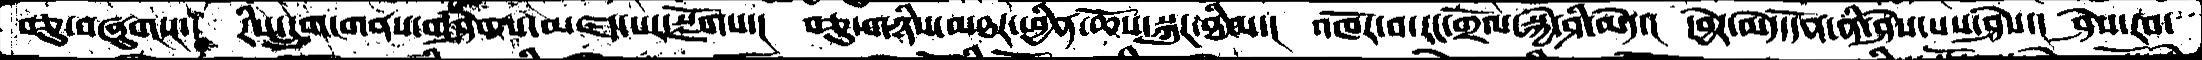བཅུ་བཞུགས་།  རིས་དྲུག་གནས་གཤེགས་མཛད་པར་སྫོགས་།  བཅུ་གཉིས་མཐར་ཕྱིན་ཆོས་སྐུར་ཐིམ་།  འཁོར་བ་རང་གྲོལ་སྐྱེ་ཤི་མེད་།  དབྱེར་མེད་དོན་ནི་ཤེས་པས་ཤེས་།  ཤེས་རབ་
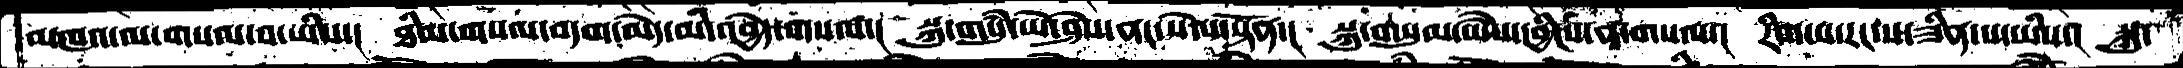མཁའ་ལ་གསལ་བ་ཡིས་།  ཐིམ་གསལ་བདག་མེད་མི་འབྱེད་གསལ་།  སྐུ་གསུཾ་ཡེ་ཤེས་ནང་སེལ་སྟོན་།  སྐུ་གསུམ་ཡཻས་དབྱིངས་ན་གསལ་།  རིག་པ་རང་ས་ཟིན་པ་ཡིས་།  སྐུ་
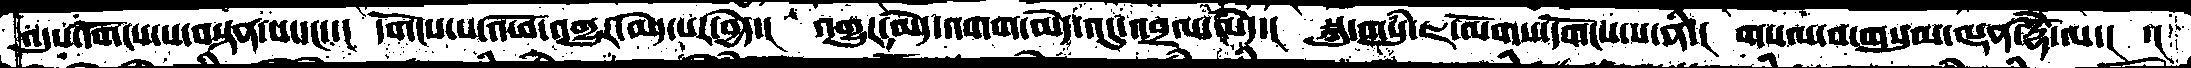འདུས་དགོངས་པ་བསྟན་པ་དང་་།  དགོངས་པ་འཕོ་འགྱུར་མེད་པར་བྱེད་།  འགྱུར་མེད་འགག་མེད་འདུ་འབྲལ་མེད་།  སྐུ་གསུཾ་ཇ་ལོགས་་དགོངས་པ་ནི་།  གསལ་བ་གསུམ་ལྡན་རྡོེ་ལ་།  ་།
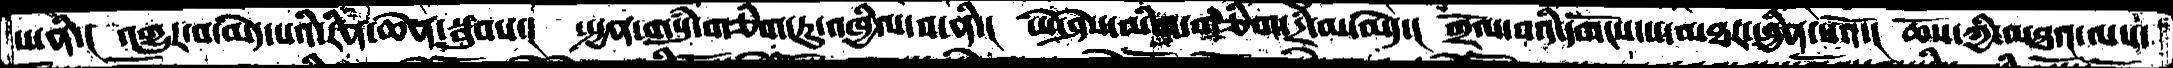ཡིན་།  འགྱུར་བ་མེད་པའི་རིན་ཆེན་སྦུབས་།  སྤྱན་གསུཾ་གཅིག་ཏུ་འཁྱིལ་བ་ནི་།  ཡེ་ཤེས་མིག་གཅིག་དྲི་མ་མེད་།  གྲོལ་བའི་དགོངས་པ་མཐར་ཕྱིན་པའོ་།  ཆོས་ཀྱི་མཐའ་ལས་
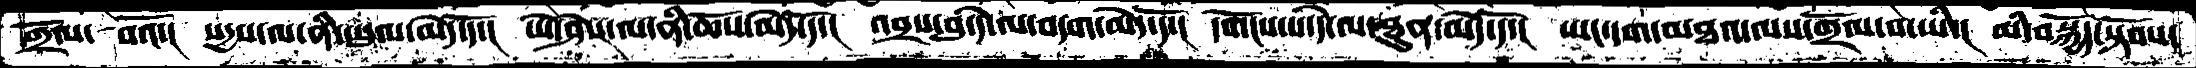གྲོལ་ བའོ་།  སདྱས་ལ་ནི་ཡུལ་མེད་དོ་།  ཡེ་ཤེས་ལ་ནི་ཆོས་མེད་དོ་།  འབྲས་བུ་དེ་ལ་བདག་མེད་དོ་།  དགོངས་པ་དེ་ལ་ཐུན་མེད་དོ་།  ཡང་དག་མཐའ་ལས་གྲོལ་བ་ཡི་།  མི་བསྐྱོད་སྟོབས་
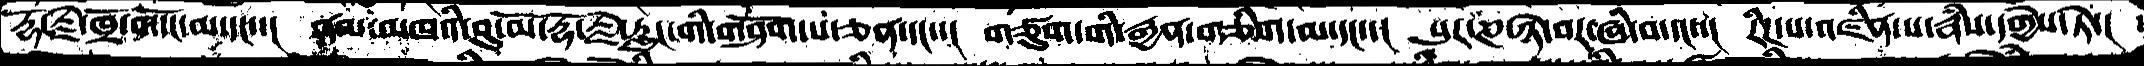རྡོ་རྗེ་ཁྲོ་གདོང་མ་དང་་།   ནམ་མཁའི་བུ་མོ་རྡོ་རྗེ་རླུང་གི་གཤོག་པ་ཅན་དང་་།  གཙུག་གི་རྒྱན་གཅིག་མ་དང་་།  པུར་ཎ་ཉེ་བར་ཞི་བ་དང་་།  རིཌ་པ་འཛིན་པ་རྣཾས་དགྱེས་ཏེ་།  ་
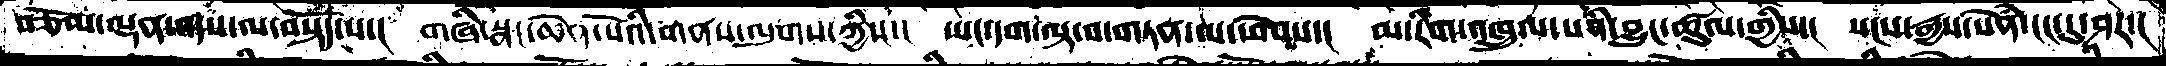བཅོམ་ལྡན་འདས་ལ་བསྟོད་པ་།  གཞི་སྣང་ཆེན་པོའི་གནས་ལུགས་ཀྱིས་།  ཡང་དག་ལྟ་བ་གཏན་ལ་ཕེབས་།  མ་རིག་འཁྲུལ་པའི་བྱུང་ཚུལ་གྱིས།  སངས་རྒྱས་སེཾན་ངང་དུ་ཤར་།
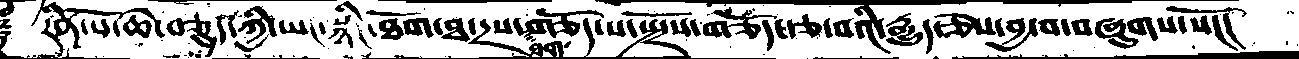༈  རིན་པོ་ཆེ་བཅུད་ཀྱི་ཡང་སྙིང་ཐོག་ཐ་དྲས་ཐག་གཅོད་པ་སྤྲོས་གཅོད་རྩ་བའི་རྒྱུད་ཅེས་བྱ་བ་བཞུགས་སོ།།།
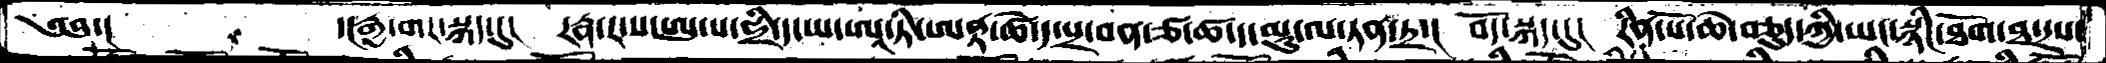༄༅་།        ་།རྒྱ་གར་སྐད་དུ།  རཏྣ་ར་ས་ཨུ་པ་ཧྲི་ད་ཡ་ཨཱ་ཏི་ཨནྟ་ཚེ་ད་པྲ་བན་ཙ་ཚ་ད་མཱུ་ལ་ཏན་ཏྲ་།  བོད་སྐད་དུ། རིན་པོ་ཆེ་བཅུད་ཀྱི་ཡང་སྙིང་ཐོག་ཐ་དྲས་
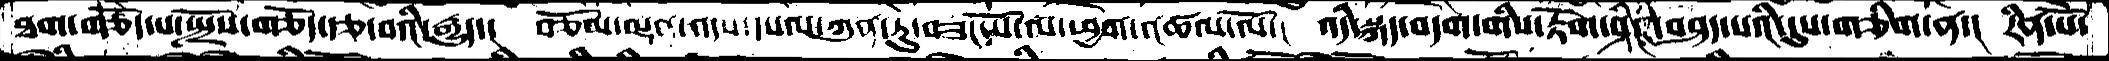ཐག་གཅོད་པ་སྤྲོས་གཅོད་རྩ་བའི་རྒྱུད་།  བཅོམ་ལྡན་འདས་དཔལ་ཀུན་ཏུ་བཟང་པོ་ལ་ཕྱག་འཚལ་ལོ་།  འདི་སྐད་བདག་གིས་རྟོག་ཤིང་བཤད་པའི་དུས་གཅིག་ན་། རིན་པོ་
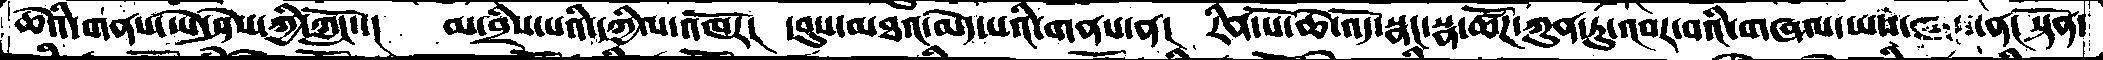ཆེའི་གནས་ཡེ་ཤེས་ཀྱི་ཀློང་་།  མ་བྲིས་པའི་དཀྱིལ་འཁོར།  དབུས་མཐའ་མེད་པའི་གནས་ན།  རིན་པོ་ཆེ་འོད་སྣང་སྣ་ཚོཌ་ཀུན་ཏུ་འབར་བའི་གཞལ་ཡས་ཁང་ན། སྟོན་
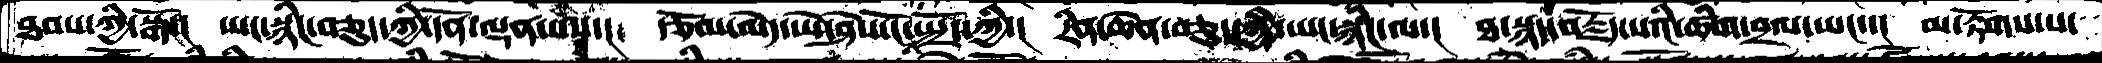ཐབས་ཀྱི་སྒོ།།།  ཡང་སྙིང་བཅུད་ཀྱི་དོན་ལྡན་པས་།   རྩོལ་མེད་ཡེ་ཤེས་ངོ་སྤྲོད་ཀྱི་།  རིན་ཆེན་བཅུད་ཀྱི་ཡང་སྙིང་ལ་།  ཐ་སྙད་བརྗོད་པའི་ཚིག་བྲལ་ཡང་་།  མ་རྟོགས་པ་
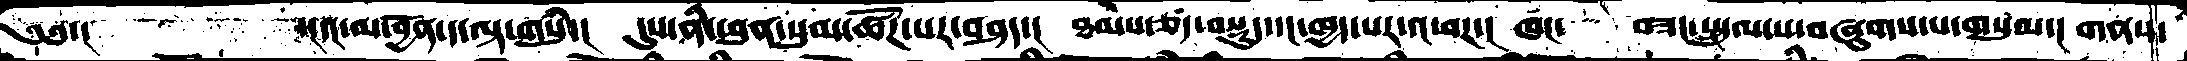༄༅་།      ་།དང་མ་བྱོན་ད་ལྟ་གསུཾ་།  དུས་ནི་ཕུན་སུམ་ཚོཌ་པར་བཤད་།  ཐམས་ཅད་བསྡུད་དང་ཁྱད་པར་འཕཌ་།  ཁང་    བཟང་སྤྲུལ་པ་བཞུགས་པ་གསུམ་།  གནས་
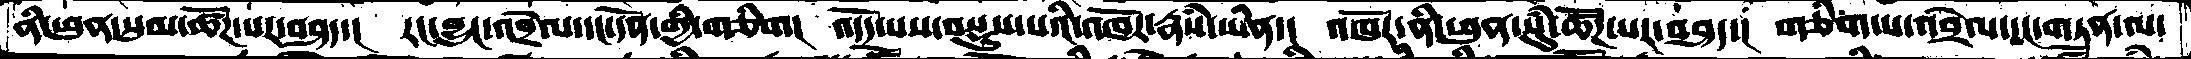ནི་ཕུན་སུམ་ཚོཌ་པར་བཤད་།  རང་བྱུང་འབྲེལ་དང་དོན་གྱི་གཅིག།  འདོད་པས་བསྡུས་པའི་འཁོར་རྣཾས་ཡིན་།  འཁོར་ནི་ཕུན་སུམ་ཚོཌ་པར་བཤད་།  གཅིག་པ་འབྲེལ་དང་གཏན་ལ་
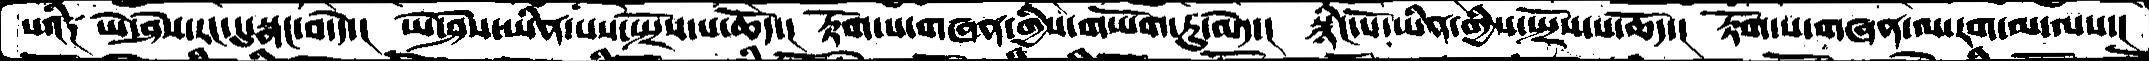པའི༑  ཡེ་ཤེས་རང་དུ་སྣང་བ་དེ་།  ཡེ་ཤེས་ཡིན་པས་སྤྲོད་པ་ཆོད་།  རྟོག་པ་གཞན་གྱིས་གཡོག་ཏུ་མེད་།  སྙིང་པོ་ཡིན་གྱིས་སྤྲོས་པ་ཆོད་།  རྟོག་པ་གཞན་ལ་རག་མ་ལས་།
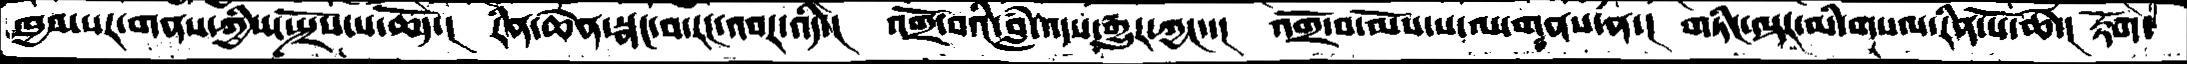ཁྱབ་པར་གནས་ཀྱིས་སྤྲོས་པ་ཆོད་།  རིན་ཆེན་སྣང་བ་རང་འབར་འདི་། འགྲོ་བའི་བླཾ་འདས་གྱུར་ཀྱང་་།  འགྲོ་བ་མོས་པ་ལ་གནས་ན་།  གཏིང་ལྟར་མི་གསལ་རིན་པོ་ཆེ་།  རྟོག་
